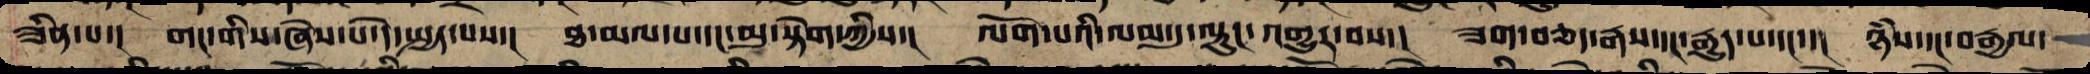ཟིན་པ་། གང་གིས་ཞེན་པས་དེ་སྤྱད་པས་། ཐ་མལ་པ་དང་མུ་སྟེག་ཀྱིས་། ལོག་པའི་ལམ་དུ་ལྟུང་འགྱུར་བས་། ཟག་པས་རྒས་དང་རྒུད་པ་དང་་། ཉཾས་དང་བརྒྱལ་
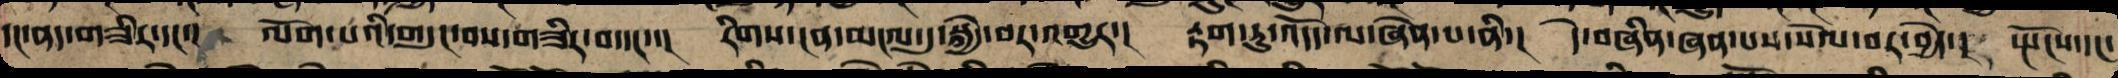དང་ནད་གཟིར་དང་་། ལོག་པའི་གདུང་བས་གཟིར་བ་དང་་། རིགས་ངན་མངལ་དུ་སྐྱེ་བར་འགྱུར་། རྟག་ཏུ་འདོད་ལ་ཞེན་པ་ནི་། དེ་བཞིན་ཞེན་པས་སེལ་བར་བྱེད་། སྤོང་དང་
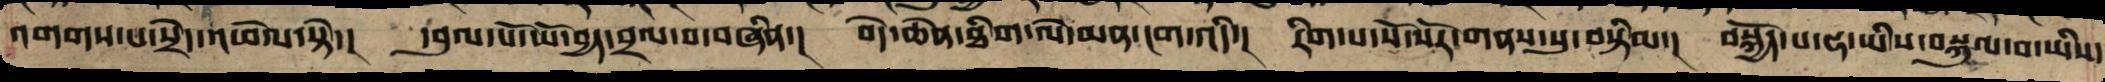འགགས་པ་སྲེད་འཕེལ་ཏེ་། དབུལ་པོ་ཡོ་བྱད་བྲལ་བ་བཞིན་། བདེ་ཆེན་ཐིག་ལེ་མན་ངག་འདི་། རིག་པ་སོ་སོར་གནས་སུ་བསྡིམ་། བསྐྱོད་པ་ཧ་ཡིས་བསྐུལ་བ་ཡིས་
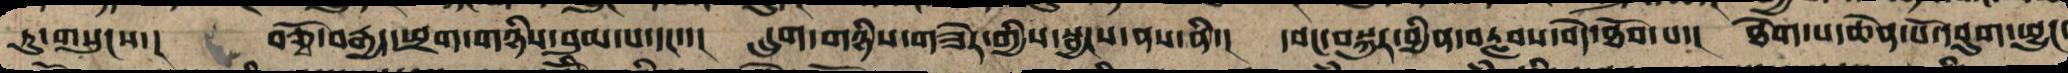ཏུ་གསུངས་། བཅྭོ་བརྒྱད་ཕྲག་གཉིས་བུམ་པ་དང་་། དྲུག་གཉིས་གཟེར་གྱིས་སྦྱངས་ནས་ནི་། དབང་བསྐུར་བྱིན་རླབས་བདེ་ཐོབ་པ་། ཐེག་པ་ཆེན་པོར་དབུག་ཕྱུང་
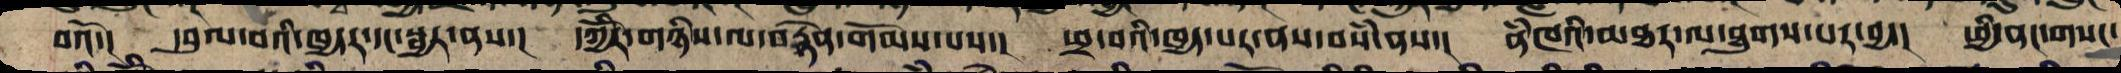བའོ་། དབུལ་བའི་ཁྱདར་དང་སྦྱར་ནས་་། དཀྱིོར་གཉིས་ལ་བརྟེན་གོམས་ནས་། ཕྲ་བའི་ཁྱད་པར་ནས་བསཾ་ནས་། ནཾཁའི་མཐར་ཐུག་བར་དུ་བྱ་། ཕྱི་ནང་གསང་
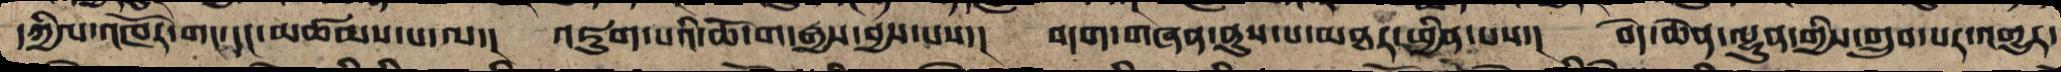དཀྱིལ་འཁོར་གང་དང་འཚམས་པ་ལ་། འཇུག་པའི་ཆོ་ག་རྒྱས་བྱས་པས་། བདག་གཞན་ནུས་པ་མཐར་ཕྱིན་པས་། བདེ་ཆེན་ལྷུན་གྱིས་གྲུབ་པར་འགྱུར་
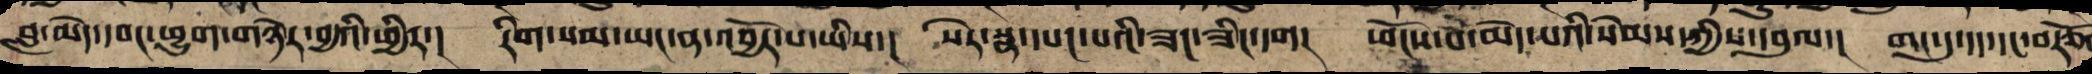བླ་མེད་དབང་ཕྱུག་མཉེས་བྱའི་ཕྱིར་། རིགས་སམ་ཡང་ན་འབྱོར་པ་ཡི་། སེར་སྣ་དཔང་པའི་ཟང་ཟིང་དག། ཕོངས་པ་མེད་པའི་སེམས་ཀྱིས་དབུལ་། གང་དུ་དད་དང་བརྩོན
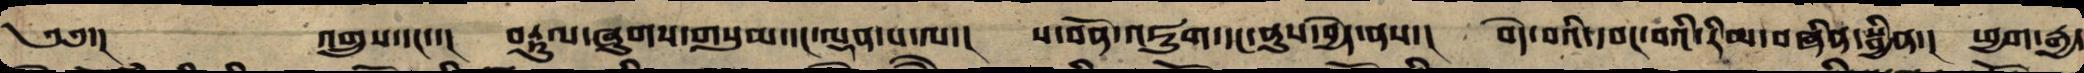༄༅་། འགྲུས་དང་་། བརྟུལ་ཞུགས་གསུམ་དང་ལྡན་པ་ལ་། ས་བོན་འཇུག་དང་ནུས་བྱེད་ནས་། བདེ་བའི་དབང་ནི་རིམ་བཞིན་སྦྱིན་། ཕྱག་རྒྱ་
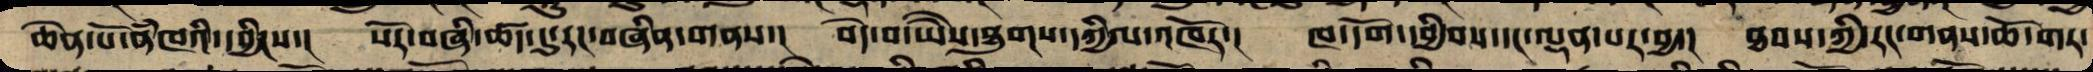ཆེན་པོ་ནཾཁའི་དབྱིངས་། སོར་བཞི་ཚད་དུ་རང་བཞིན་གནས་། བདེ་བ་ཡཻས་ཐུགས་དཀྱིལ་འཁོར་། ཁ་དོག་དབྱིབས་དང་ལྡན་པར་བྱ་། ཐབས་ཀྱི་རང་གནས་ཆོ་གར་
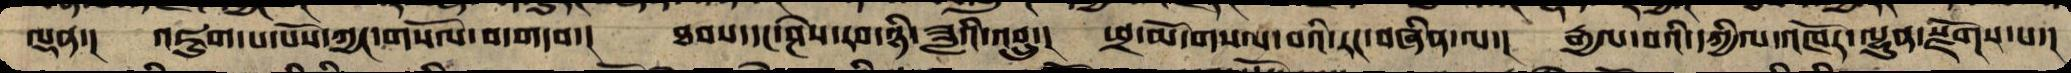ལྡན་། འཇུག་པ་པོས་ཀྱང་གསོལ་བ་གདབ་། ཐབས་དང་ཤེས་རབ་ཉི་ཟླའི་འབྲུ་། ཕྲ་མོ་གསལ་བའི་རང་བཞིན་ལ་། རྒྱལ་བའི་དཀྱིལ་འཁོར་ལྷུན་སྫོགས་པ་།
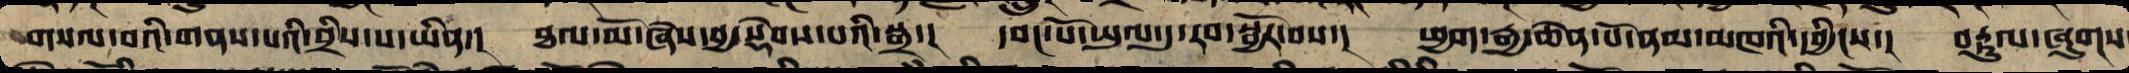གསལ་བར་གནས་པ་བྲིས་པ་ཡིན་། ཐལ་མོ་ཞེས་བྱ་སྡེབས་པའི་སྒྲ་། དབང་པོ་ཡུལ་དུ་རབ་སྦྱོར་བས་། ཕྱག་རྒྱ་ཆེན་པོ་ནམ་མཁའི་དབྱིངས་། བརྟུལ་ཞུགས་
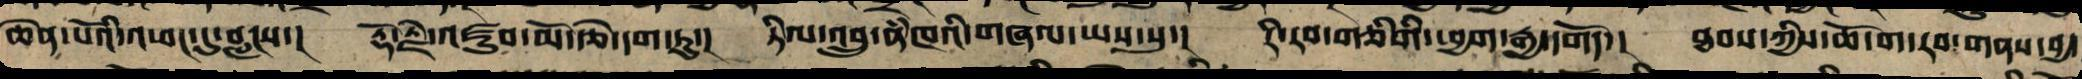ཆེན་པོའི་ཕང་དུ་བླངས་། རྡོ་རྗེ་མཛུབ་མོའི་རྩེ་དག་ཏུ་། ཏིལ་འབྲུ་ནཾཁའི་གཞལ་ཡས་སུ་། རི་རབ་གཅིགི་ཕྱག་རྒྱ་དགོད་། ཐབས་ཀྱི་ཆོ་གར་རབ་གནས་བྱ་
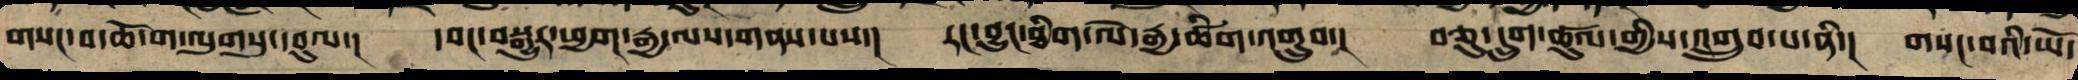གསང་བའི་ཆོ་ག་ལུགསུ་དབུལ་། དབང་བསྐུར་ཕྱག་རྒྱ་ལ་གནས་པས་། རང་བྱུང་ཐིག་ལེ་སྣ་ཚིག་འགྲུབ་། བཅུ་དྲུག་ཚུལ་གྱིས་འགྲུབ་པ་ནི་། གསང་བའི་ཡོ་
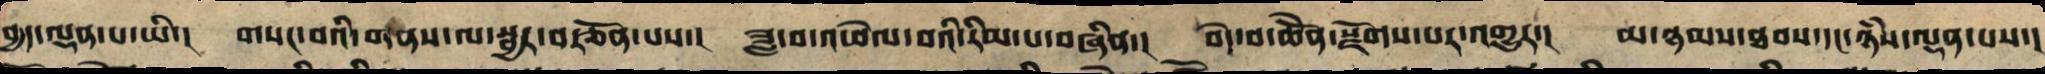བྱད་ལྡན་པ་ཡི་། གསང་བའི་གནས་ལ་སྦྱར་བརྩོན་པས་། ཟླ་བ་འཕེལ་བའི་རིམ་པ་བཞིན་། བདེ་བ་ཆེནོ་སྫོགས་པར་འགྱུར་། མ་ཉམས་ཐབས་དང་ཉཾས་ལྡན་པས་།
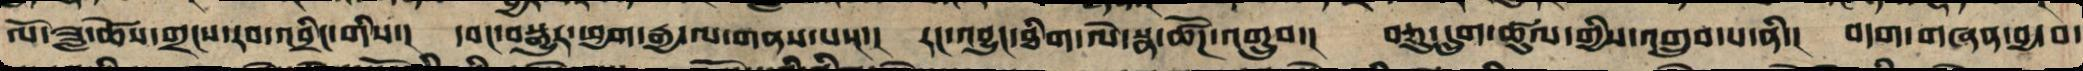ལོ་ཟླ་ཚེས་གྲངས་རབ་འབྲིང་གིས་། དབང་བསྒྱུར་ཕྱག་རྒྱ་ལ་གནས་པས་། རང་བྱུང་ཐིག་ལེ་སྣ་ཚོཌ་འགྲུབ་། བཅུ་དྲུག་ཚུལ་གྱིས་འགྲུབ་པ་ནི་། བདག་གཞན་བྱ་བ་
